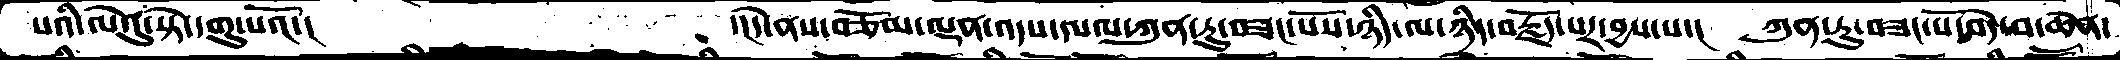པའི་ལེའུ་སྟེ་དགུ་པའོ་།         ་།དེ་ནསབཅོམ་ལྡན་འདས་དཔལ་ཀུན་ཏུ་བཟང་པོས་ཉིད་ལ་ཉིད་བརྗོད་པར་བྱས་པ་།  ཀུན་ཏུ་བཟང་པོ་བདེ་བ་ཆེན་
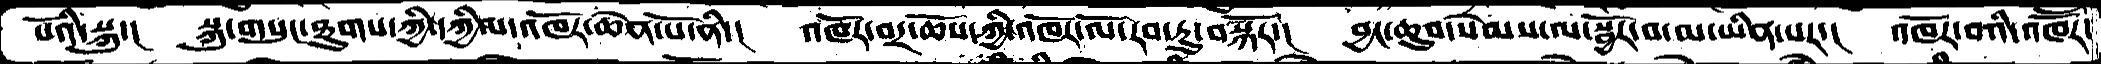པོའི་སྐུ་།  སྐུ་གསུང་ཐུགས་ཀྱི་དཀྱིལ་འཁོར་ཆེན་པོ་ནི་།  འཁོར་བར་ཆོས་ཀྱི་འཁོར་ལོ་རབ་ཏུ་བསྐོར་།  བྱང་ཆུབ་སེམས་ལ་སྦྱོར་བ་མ་་ཡིན་པར་།  འཁོར་བའི་འཁཽར་
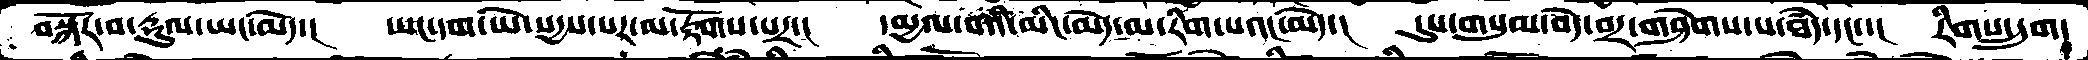བསྐོར་བ་རྡུལ་་ཡང་མེད་།  ཡང་དག་ཡེ་སདྱས་པར་མ་རྟོགས་པར་།  དམྱལ་བའི་མིང་མེད་མ་རིག་པའང་མེད་།  དུས་གསུམ་བདེ་བར་གཤེགས་པ་ཐཾད་དང་་།  རིགས་དྲུག་
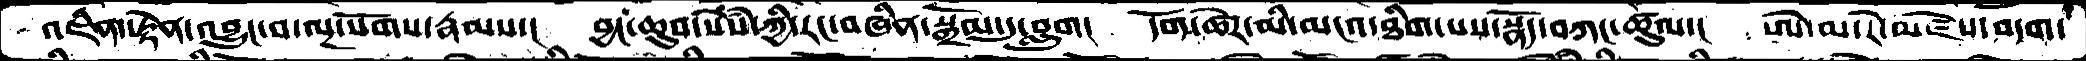འཇིག་རྟེན་འབྱུང་བ་ལྔ་སོགས་རྣམས་།  བྱང་ཆུབ་སེསཾ་ཀྱི་རང་བཞིན་སྒྲོམ་དུ་བླུག།   དོག་ཚེར་མི་མངའ་ཐིག་པས་སྣོད་བཀང་ཚུལ་།  ཨེ་མ་རེ་མཛེས་བདག་
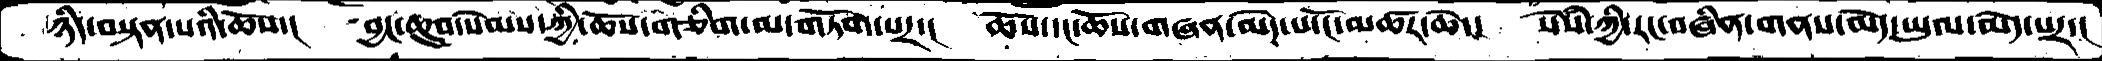ཉིད་བསྟན་པའི་ཆོས་།   བྱང་ཆུབ་སེམས་ཀྱི་ཆོས་གཅིག་མ་གཏོག་པར་།   ཆོས་དང་ཆོས་གཞན་མེད་པ་ངོ་མཚར་ཆེ་།   སེསཾ་ཀྱི་རང་བཞིན་གནས་མེད་ཡུལ་མེད་པར་།
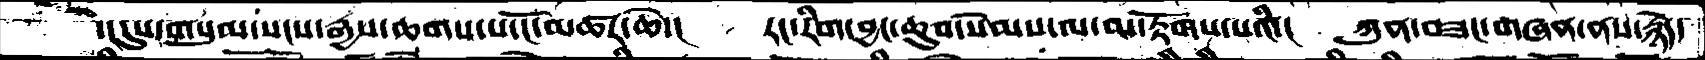་།དུས་གསུམ་སངས་རྒྱས་ཆགས་པ་ངོ་མཚར་ཆེ་།   རང་རིག་བྱང་ཆུབ་སེམས་ལ་མ་རྟོགས་པའི་།    ཀུན་བཟང་གཞན་ནས་རྙེད་
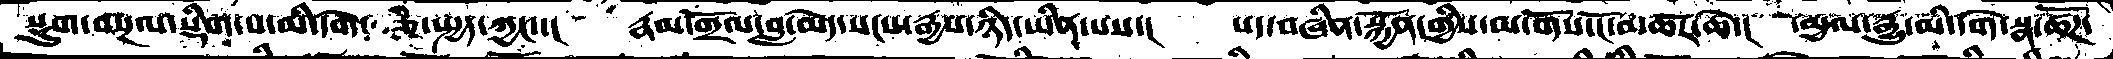སྡུག་བསྔལ་སྡིག་པ་མི་དགེ་ ཅི་སྤྱད་ཀྱང་་།    རྣམ་གྲོལ་བླ་མེད་སངས་རྒྱས་ཉིད་ཡིན་པས་།    སད་བཞིན་སྐྱོན་གྱིས་མ་གོས་ངོ་མཚར་ཆེ་།   དམྱལ་རྒྱུ་མི་དགེ་སྣ་ཚོཌ་
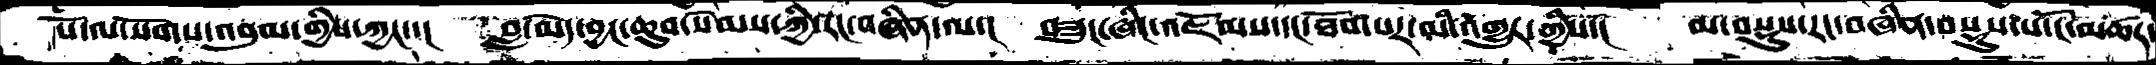པོ་ལ་སོགས་འབུམ་གྱིས་ཀྱང་་།   བླ་མེད་བྱང་ཆུབ་སེམས་ཀྱི་རང་བཞིན་ལ་།   བཟུང་ཞིང་འཇོམས་དང་ཐོག་པར་མི་འགྱུར་གྱིས་།    མ་བསྡུས་རང་བཞིན་བསྡུས་པ་ངོ་མཚར་
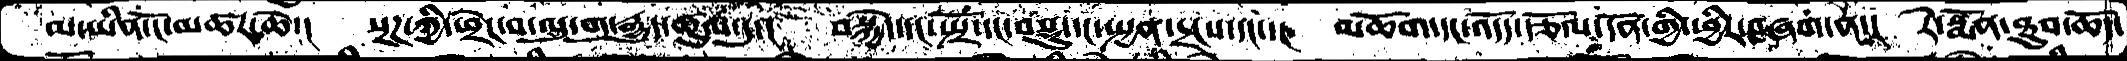མ་ཡིན་ངོ་མཚར་ཆེ་།  སྔཌ་ཀྱི་ཕྲེང་བ་ལུ་གུ་རྒྱུད་ཚུལ་དུ་།  བསྐྱེད་དང་སྤྲོ་དང་བསྡུ་དང་སྤྱན་དྲངས་དང་་།  མཆོག་དང་འདོད་རྩོལ་དོན་གྱི་ཕྱིར་བཞག་ན་།  རེ་སྨོན་ཐུབ་ཆོད་
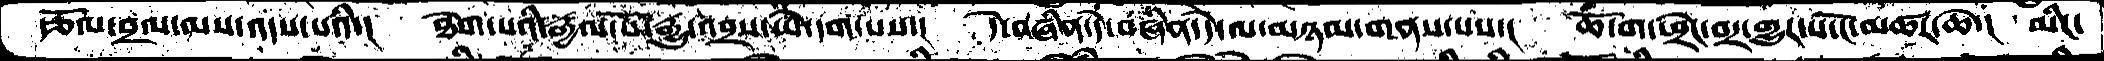རྩོལ་བྲལ་ལས་འདས་པའི་།  ཐེག་པའི་རྒྱལ་པོ་རྒྱུ་འབྲས་ཡེ་དག་པས་།  དེ་བཞིན་དེ་བཞིན་དེ་ལ་མཉམ་གནས་པས་།  ཆོ་ག་ཕྲེང་བར་གྱུར་པ་ངོ་མཚར་ཆེ་།  མིང་
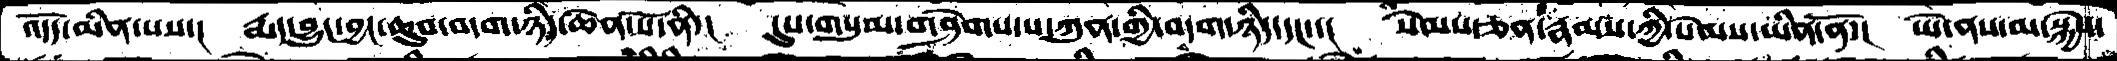འདོད་མིན་པས་།  རྨད་བྱུང་བྱང་ཆུབ་བདག་ཉིད་ཆེན་པོ་ནི་།  དུས་གསུམ་གཤེགས་པ་ཀུན་གྱི་བདག་ཉིད་དང་་།  སེམས་ཅན་རྣམས་ཀྱི་སེམས་ཡིན་ནོ་།  ཡེ་ནས་མ་སྐྱེས་
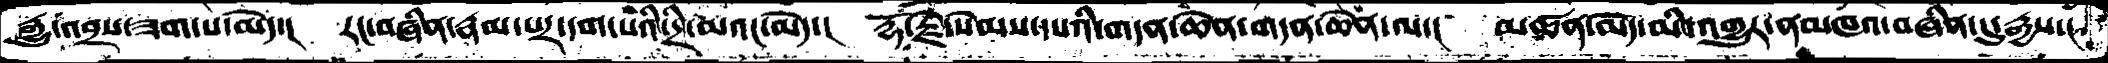རྒྱུ་འབྲས་ཟག་པ་མེད་།  རང་བཞིན་རྣམ་པར་དག་པའི་དྲི་མའང་མེད་།  རྡོ་རྗེ་སེམས་དཔའི་གདན་ཆེན་གདན་ཆེན་ལ་།  མཚན་མེད་མི་འགྱུར་ནམཁའ་བཞིན་དུ་རྒྱས་།
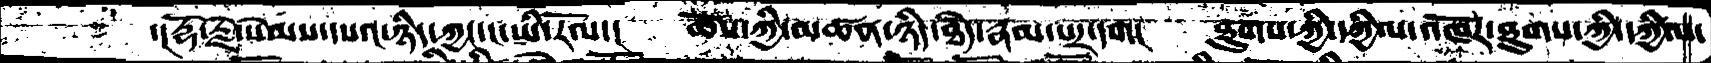་།རྡོ་རྗེ་སེམས་དཔའ་ཉིད་ཀྱང་ང་ཡི་རོལ་།  ཆོས་ཀྱི་མཚན་ཉིད་ཐཾད་རྣམ་པར་དག་།  ཐུགས་ཀྱི་དཀྱིལ་འཁོར་ཐུགས་ཀྱི་དཀྱིལ་
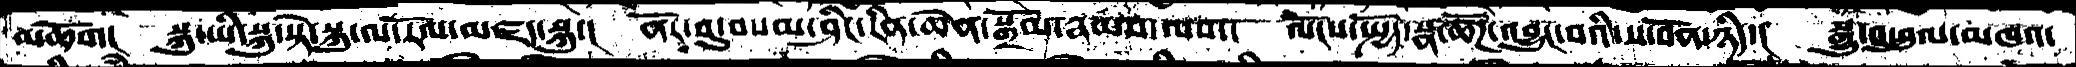མཆོག།  སྐུ་ཡི་སྐུ་སྟེ་སྐུ་ལ་རོལ་མཛད་སྐུ་།  ནོར་བུ་བསམ་ཤིང་རིན་ཆེན་སྒྲོམ་རྣམས་ལས་།  ལོངས་སྤྱོད་སྣ་ཚོཌ་འབྱུང་བའི་ས་བོན་ཉིད་།  སྒྱུ་འཕྲུལ་མཁའ་
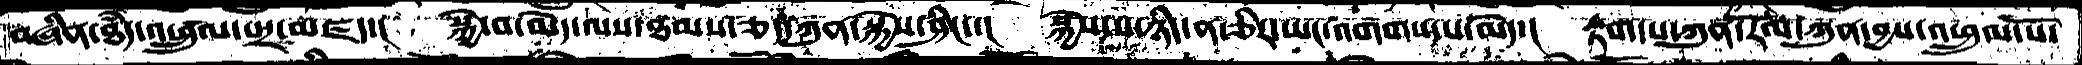བཞིན་ཐཾད་འཕྲུལ་པར་མཛད་།  སྐྱེ་བ་མེད་ལས་ཐམས་ཅད་ཀུན་སྐྱེས་ཤིང་་།  སྐྱེས་པ་ཉིད་ན་ཅིར་ཡང་འགགས་པ་མེད་།  རྟག་པ་ཀུན་རོལ་ཀུན་བྱས་འཕྲུལ་སོ་
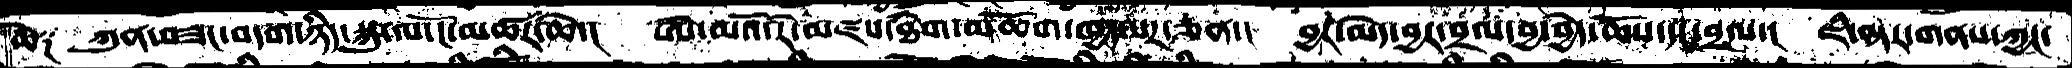ཆེ༑  ཀུན་བཟང་བདག་ཉིད་སྐུ་ལ་ངོ་མཚར་ཆེ་།  ཨེ་མའོ་རེ་མཛས་ཐེག་མཆོག་ཁྱད་པར་ཅན་།  བྱར་མེད་བྱར་བྲལ་བྱ་བྱེད་ཆོས་དང་བྲལ་།  ཇི་ལྟར་གནས་ཀྱང་
